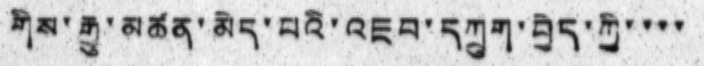གིས་རྒྱུ་མཚན་མེད་པའི་འཇབ་དཀྲུག་བྱེད་ཀྱི་་་་
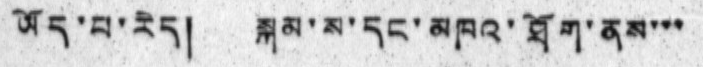ཡོད་པ་རེད། སྐམ་ས་དང་མཁའ་ཐོག་ནམ་་་
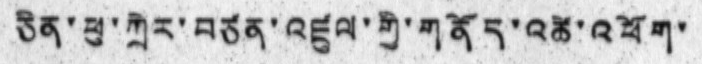ཅིན་ཕུ་ཀྲེར་བཙན་འཛུལ་གྱི་གནོད་འཚེ་འཕོག་
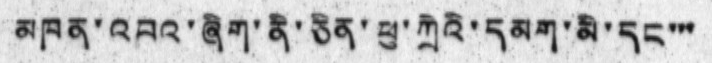མཁན་འབའ་ཞིག་ནི་ཅིན་ཕུ་ཀྲེའི་དམག་མི་དང་་་
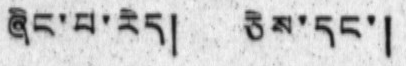ཞིང་པ་རེད། ཅེས་དང་།
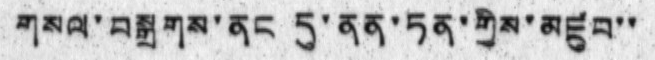གསལ་བསྒྲགས་ནང དུ་ནན་ཏན་གྱིས་མཛུབ་་
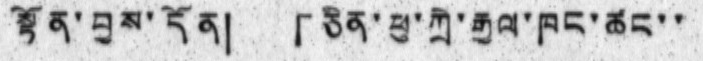སྟོན་བྱས་དོན། 「ཅིན་ཕུ་ཀྲེ་རྒྱལ་ཁང་ཚང་་
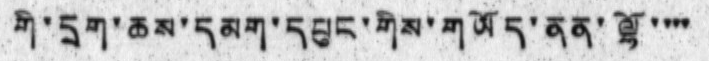གི་དྲག་ཆས་དམག་དཔུང་གིས་གཡོད་ནན་ལྷོ་་་་
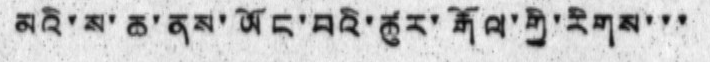མའི་ས་ཆ་ནས་ཡོང་བའི་ཚུར་རྒོལ་གྱི་རིགས་་་
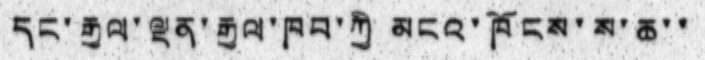དང་རྒྱལ་ལྡན་རྒྱལ་ཁབ་ཀྱི མངའ་ཁོངས་ས་ཆ་་
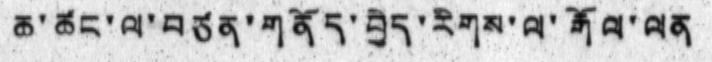ཆ་ཚང་ལ་བཙན་གནོད་བྱེད་རིགས་ལ་རྒོལ་ལན
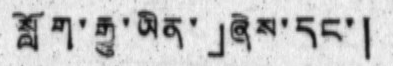སློག་རྒྱུ་ཡིན་ 」ཞེས་དང་།
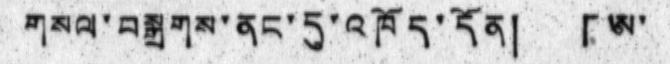གསལ་བསྒྲགས་ནང་དུ་འཁོད་དོན། 「ཨ་་
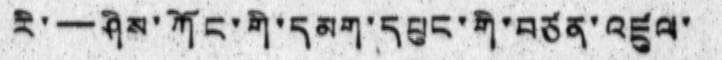རི་—ཤིས་ཀོང་གི་དམག་དཔུང་གི་བཙན་འཛུལ་
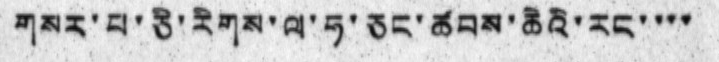གསར་པ་ཅི་རིགས་ལ་ཧ་ཅང་ཚབས་ཆེའི་རང་་་་
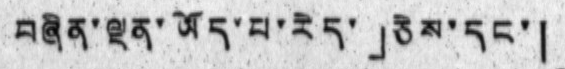བཞིན་ལྡན་ཡོད་པ་རེད་」ཅེས་དང་།
